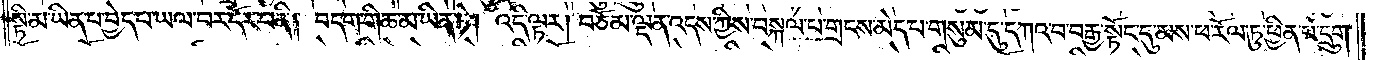སྟི་མ་ཡིན་པ་བྱེད་པ་ཡལ་བར་དོར་བ་ནི། བདག་གི་ཆ་མ་ཡིན་ཏེ། འདི་ལྟར། བཅོམ་ལྡན་འདས་ཀྱིས་བསྐལ་པ་གྲངས་མེད་པ་གསུམ་དུ་དཀའ་བ་བརྒྱ་སྟོང་དུ་མས་ཕ་རོལ་ཏུ་ཕྱིན་པ་དྲུག་
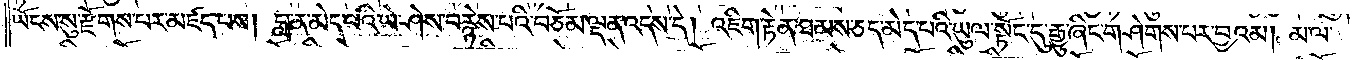ཡོངས་སུ་རྫོགས་པར་མཛད་པས། བླ་ན་མེད་པའི་ཡེ་ཤེས་བརྙེས་པའི་བཅོམ་ལྡན་འདས་དེ། འཇིག་རྟེན་ཐམས་ཅད་མེད་པའི་ཡུལ་སྟོང་དུ་རྒྱུ་ཞིང་གཤེགས་པར་བྱའམ། མ་ལ་
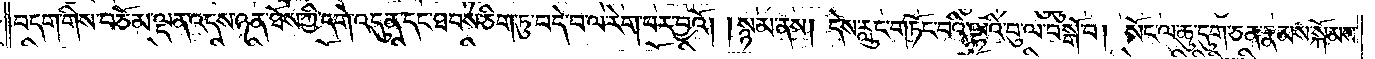བདག་གིས་བཅོམ་ལྡན་འདས་ཉན་ཐོས་ཀྱི་དགེ་འདུན་དང་ཐབས་ཅིག་ཏུ་བདེ་བ་ལ་རེག་པར་བྱའོ། །སྙམ་ནས། དེས་རླུང་གཏོང་བའི་ལྷའི་བུ་ལ་བསྒོ་བ། སོང་ལ་ཆུ་དུག་ཅན་རྣམས་སྐོམས་
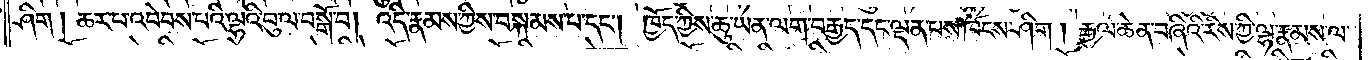ཤིག །ཆར་པ་འབེབས་པའི་ལྷའི་བུ་ལ་བསྒོ་བ། འདི་རྣམས་ཀྱིས་བསྐམས་པ་དང༌། ཁྱོད་ཀྱིས་ཆུ་ཡན་ལག་བརྒྱད་དང་ལྡན་པས་ཁོངས་ཤིག །རྒྱལ་ཆེན་བཞིའི་རིས་ཀྱི་ལྷ་རྣམས་ལ་
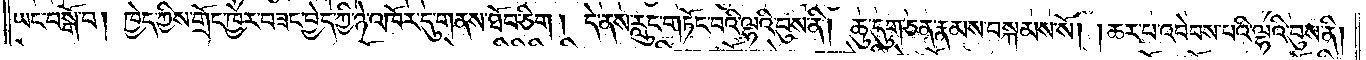ཡང་བསྒོ་བ། ཁྱེད་ཀྱིས་གྲོང་ཁྱེར་བཟང་བྱེད་ཀྱི་ཉེ་འཁོར་དུ་གནས་ཐོབ་ཅིག །དེ་ནས་རླུང་གཏོང་བའི་ལྷའི་བུས་ནི། ཆུ་དུག་ཅན་རྣམས་བསྐམས་སོ། །ཆར་པ་འབེབས་པའི་ལྷའི་བུས་ནི།
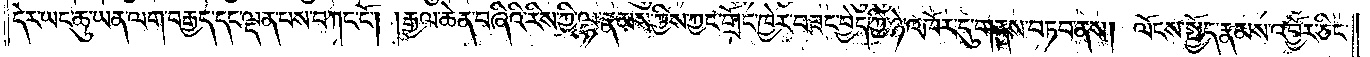དེར་ཡང་ཆུ་ཡན་ལག་བརྒྱད་དང་ལྡན་པས་བཀང་ངོ༌། །རྒྱལ་ཆེན་བཞིའི་རིས་ཀྱི་ལྷ་རྣམས་ཀྱིས་ཀྱང་གྲོང་ཁྱེར་བཟང་བྱེད་ཀྱི་ཉེ་འཁོར་དུ་གནས་བཏབ་ནས། ལོངས་སྤྱོད་རྣམས་འབྱོར་ཅིང་
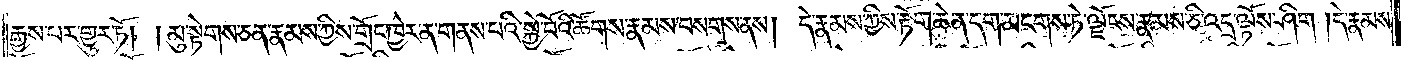རྒྱས་པར་གྱུར་ཏོ། །མུ་སྟེགས་ཅན་རྣམས་ཀྱིས་གྲོང་ཁྱེར་ན་གནས་པའི་སྐྱེ་བོའི་ཚོགས་རྣམས་བསགས་ནས། དེ་རྣམས་ཀྱིས་རྟོག་ཆེན་དག་མངགས་ཏེ་ལྗོངས་རྣམས་ཅི་འདྲ་ལྟོས་ཤིག །དེ་རྣམས་
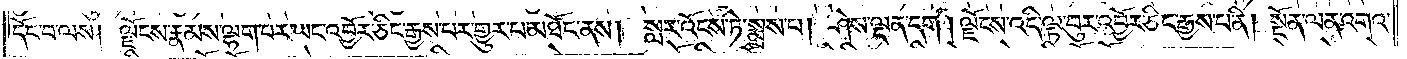དོང་བ་ལས། ལྗོངས་རྣམས་ལྷག་པར་ཡང་འབྱོར་ཅང་རྒྱས་པར་གྱུར་པ་མཐོང་ནས། སླར་འོངས་ཏེ་སྨྲས་པ། ཤེས་ལྡན་དག །ལྗོངས་འདི་ལྟ་བུར་འབྱོར་ཅིང་རྒྱས་པ་ནི། སྔོན་ལན་འགའ་
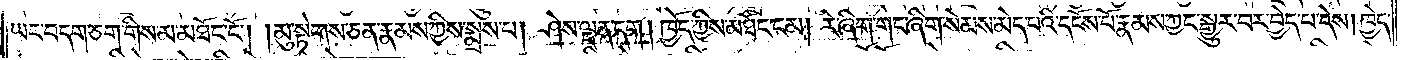ཡང་བདག་ཅག་གིས་མ་མཐོང་ངོ༌། །མུ་སྟེགས་ཅན་རྣམས་ཀྱིས་སྨྲས་པ། ཤེས་ལྡན་དག །ཁྱོད་ཀྱིས་མཐོང་ངམ། རེ་ཞིག་གང་ཞིག་སེམས་མེད་པའི་དངོས་པོ་རྣམས་ཀྱང་སྒྱུར་བར་བྱེད་པ་དེས། ཁྱེད་
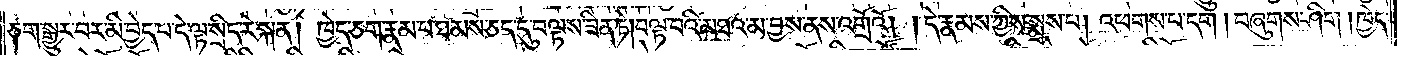ཅག་སྒྱུར་བར་མི་བྱེད་པ་དེ་ལྟ་སྲིད་རེ་སྐན། ཁྱེད་ཅག་རྣམ་པ་ཐམས་ཅད་དུ་བལྟས་ཟིན་ཏེ། བལྟ་བའི་མཐའ་མ་བྱས་ནས་འགྲོའོ། །དེ་རྣམས་ཀྱིས་སྨྲས་པ། འཕགས་པ་དག །བཞུགས་ཤིག །ཁྱེད་
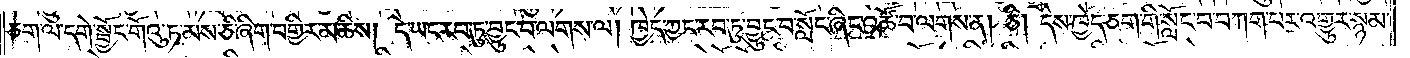ཅག་ལ་དགེ་སྦྱོང་གོའུ་ཏ་མས་ཅི་ཞིག་བགྱིར་མཆིས། དེ་ཡང་རབ་ཏུ་བྱུང་བ་ལགས་ལ། ཁྱེད་ཀྱང་རབ་ཏུ་བྱུང་བ་སློང་ཞིང་འཚོ་བ་ལགས་ན། ཅི། དེས་ཁྱེད་ཅག་གི་སློང་བ་བཀག་པར་འགྱུར་སྙམ་
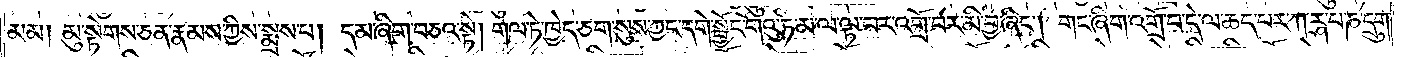མམ། མུ་སྟེགས་ཅན་རྣམས་ཀྱིས་སྨྲས་པ། དམ་ཞིག་བཅའ་སྟེ། གལ་ཏེ་ཁྱེད་ཅག་སུས་ཀྱང་དགེ་སྦྱོང་གོའུ་ཏ་མ་ལ་ལྟ་བར་འགྲོ་བར་མི་བྱ་ཞིང༌། གང་ཞིག་འགྲོ་བ་དེ་ལ་ཆད་པར་ཀཪྴ་པ་ཎ་དྲུག་
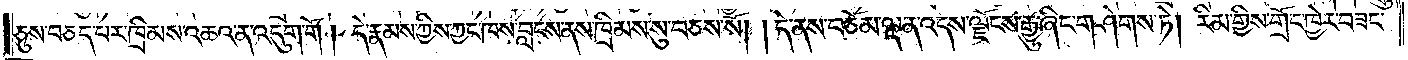ཅུས་བཅད་པར་ཁྲིམས་འཆའ་ན་འདུག་གོ །དེ་རྣམས་ཀྱིས་ཀྱང་ཁས་བླངས་ནས་ཁྲིམས་སུ་བཅས་སོ། །དེ་ནས་བཅོམ་ལྡན་འདས་ལྗོངས་རྒྱུ་ཞིང་གཤེགས་ཏེ། རིམ་གྱིས་གྲོང་ཁྱེར་བཟང་
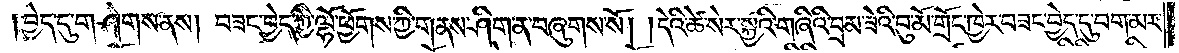།བྱེད་དུ་གཤེགས་ནས། བཟང་བྱེད་ཀྱི་ལྷོ་ཕྱོགས་ཀྱི་གནས་ཤིག་ན་བཞུགས་སོ། །དེའི་ཚེ་སེར་སྐྱའི་གཞིའི་བྲམ་ཟེའི་བུ་མོ་གྲོང་ཁྱེར་བཟང་བྱེད་དུ་བག་མར་
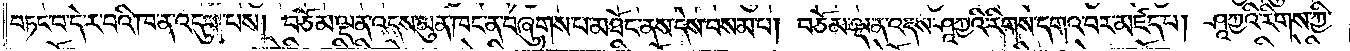བཏང་བ་དེ་ར་བའི་ཁ་ན་འདུག་པས། བཅོམ་ལྡན་འདས་མུན་ཁང་ན་བཞུགས་པ་མཐོང་ནས་དེས་བསམ་པ། བཅོམ་ལྡན་འདས་ཤཱཀྱའི་རིགས་དགའ་བར་མཛད་པ། ཤཱཀྱའི་རིགས་ཀྱི་
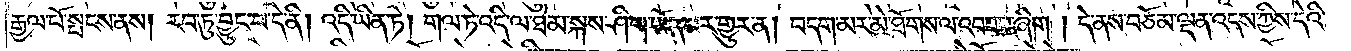རྒྱལ་པོ་སྤངས་ནས། རབ་ཏུ་བྱུང་བ་དེ་ནི། འདི་ཡིན་ཏེ། གལ་ཏེ་འདི་ལ་ཐེམ་སྐས་ཤིག་ཡོད་པར་གྱུར་ན། བདག་མར་མེ་ཐོགས་ལ་འབབ་པ་ཞིག །དེ་ནས་བཅོམ་ལྡན་འདས་ཀྱིས་དེའི་
